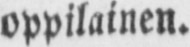oppilainen.
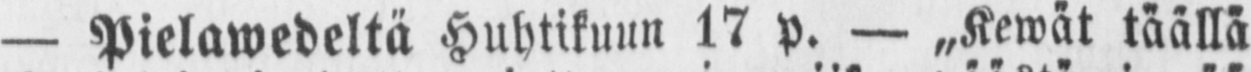— Pielawedeltä Huhtikuun 17 p. — „Kewät täällä
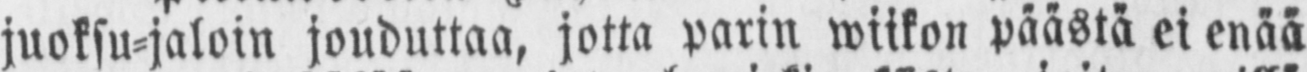juoksu-jaloin jouduttaa, jotta parin wiikon päästä ei enää
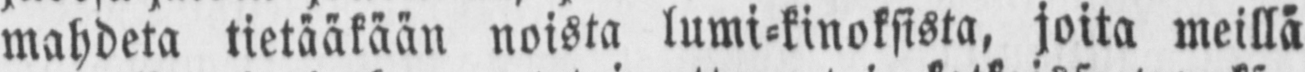mahdeta tietääkään noista lumi-kinoksista, joita meillä
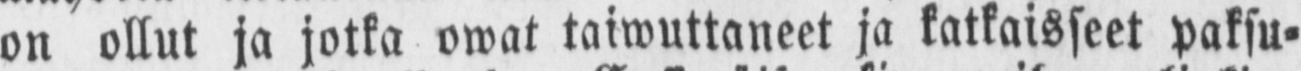on ollut ja jotka owat taiwuttaneet ja katkaisseet paksu-
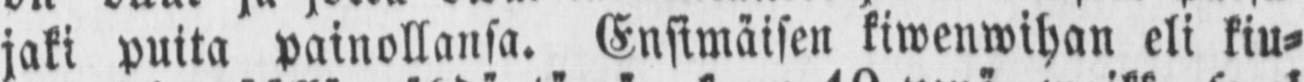jaki puita painollansa. Ensimäisen kiwenwihan eli kiu-
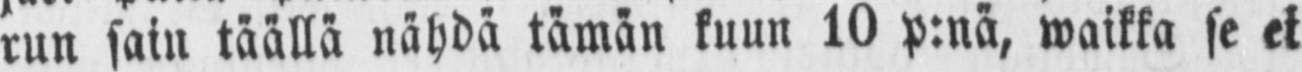run sain täällä nähdä tämän kuun 10 p:nä, waikka se ei
